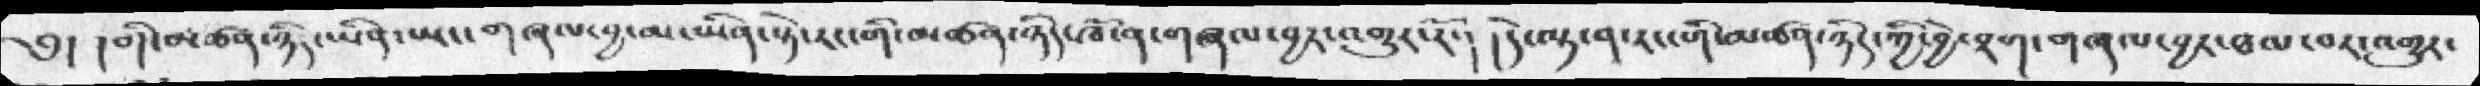༅། །གི་མཚན་ཉིད་ཡིན་ཡང་གཞལ་བྱ་མ་ཡིན་སྟེ་རང་གི་མཚན་ཉིད་ཁོ་ན་གཞལ་བྱར་འགྱུར་རོ་། །དེ་ལྟ་ན་རང་གི་མཚན་ཉིད་ཀྱི་བྱེ་བྲག་གཞལ་བྱར་ཐལ་བར་འགྱུར་
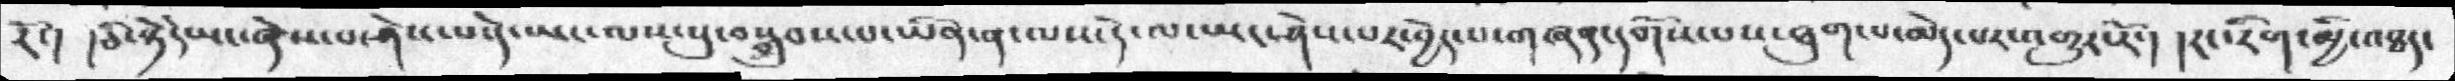རོ་།  །ཅི་སྟེདེཡང་ཞེས་པ་ཤེས་པ་དེ་ཡང་ལས་སུ་བསྒྲུབས་པ་ཡིན་ན་ལས་དེ་ལ་ཡང་ཤེས་པར་བྱེད་པ་གཞན་དགོས་པས་ཐུག་པ་མེད་པར་འགྱུར་རོ་། །རང་རིག་མྱི་འཐད་
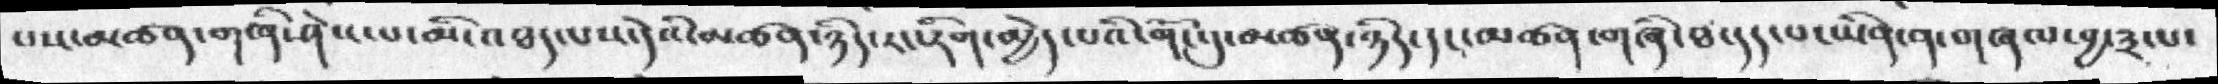པས་མཚན་གཞི་ཤེས་པ་མི་འཐད་པས་དེའི་མཚན་ཉིད་རང་རིག་མྱེད་པའི་གོང་དུ་མཚན་ཉིད་དང་མཚན་གཞི་ཐ་དད་པ་ཡིན་ན་གཞལ་བྱ་༣་པ་
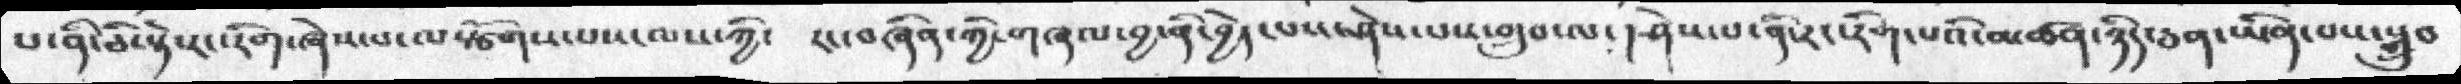པ་ནི་ཅི་སྟེ་རང་རིག་ཞེས་པ་ལསྩོགས་པས་ལས་ཀྱི་ རང་བཞིན་ཀྱི་གཞལ་བྱ་ནི་བྱེད་པས་ཤེས་པས་གྲུབ་ལ་། ཤེས་པ་ནི་རང་རིག་པའི་མཚན་ཉིད་ཅན་ཡིན་པས་སྒྲུབ
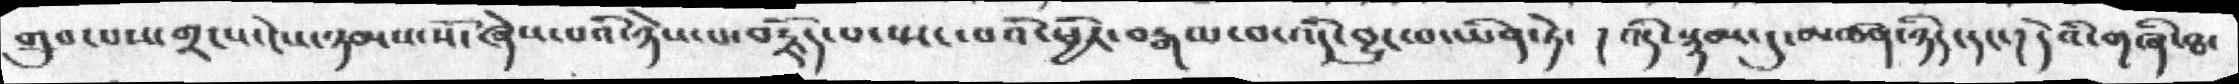གྲུབ་པས་གྲངས་ངེས་ཉམས་སོ་ཞེས་པའི་ཉེས་པ་བརྗོད་པ་སྤང་བའི་ཕྱིར་བརྒལ་བ་འདི་བྱུང་བ་ཡིན་ཏེ་། འདི་སྙམ་དུ་མཚན་ཉིད་དང་། དེའི་གཞི་ཐ་
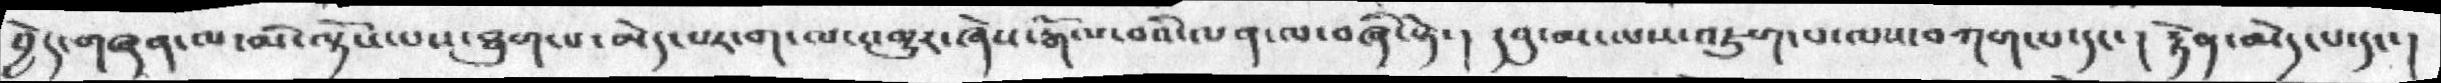བྱེད་གཞན་ལ་མི་ལྟོས་པས་ཐུག་པ་མེད་པར་ག་ལ་འགྱུར་ཞེས་རྒོལ་བའི་ལན་ལ་བཞི་སྟེ་།  དབུ་མ་ལས་འཇུག་པ་ལས་བཀག་པ་དང་། རྟེན་མེད་པ་དང་།
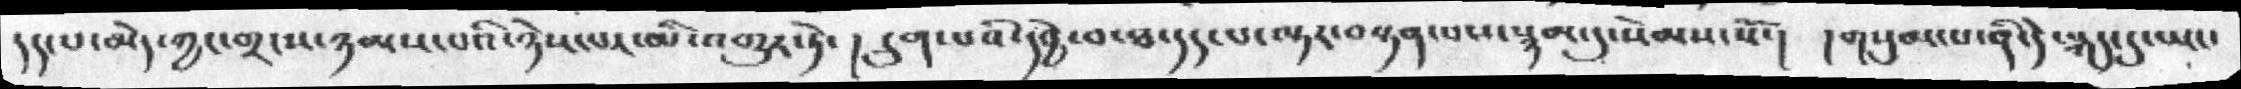དད་པ་མེད་ཀྱང་གྲངས་ཉམས་པའི་ཉེས་པར་མི་འགྱུར་ཏེ་། དྲུག་པའི་དབྱེ་བ་ཐ་དད་པ་ལྟར་བསྟན་པས་སྙམ་དུ་སེམས་སོ་། །གསུམ་པ་ནི་དེ་སྐད་དུ་ཡང་
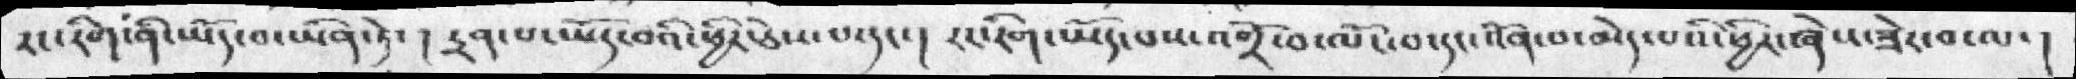རང་རིག་ནི་ཡོད་བ་ིན་ཏེ་།  དྲན་པ་ཡོད་བའི་ཕྱིར་ཅེས་པ་དང་། རང་རིག་ཡོད་པས་འགྲོ་བ་ལོང་བ་དང་འོན་པ་མེད་པའི་ཕྱིར་ཞེས་ཟེར་བ་ལ་།
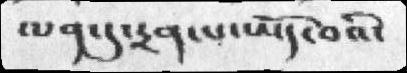ལན་དུ་དྲན་པ་ཡོད་བའི་
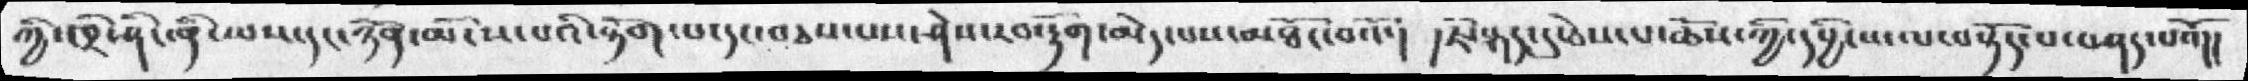ཀྱི་ཁྲི་ཤིང་ནི་ལས་དང་ཉོན་མོངས་པའི་རྟོག་པ་དང་བཅས་པས་ཤེས་རབ་རྟོག་མེད་པས་མཐོང་བའོ་། །ཇི་སྐད་དུ་ཅེས་པ་ཆོས་ཀྱི་དབྱིངས་ལ་བསྟོད་པ་བཤད་པའོ།།
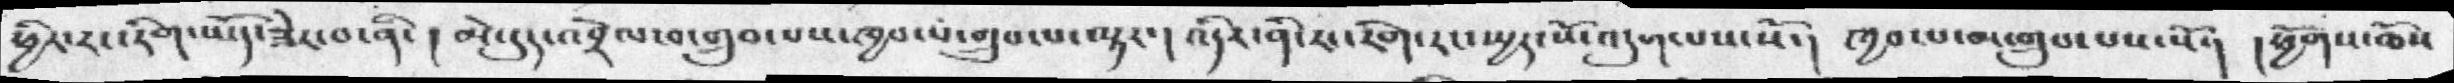ཕྱིར་རང་རིག་ཡོད་ཟེར་བ་ནི་། མེ་དུད་འབྲེལ་བ་གྲུབ་པས་ཁྱབ་པ་གྲུབ་པ་ལྟར་། འདིར་ནི་རང་རིག་རང་སྤྱད་སོ་འདུག་པས་སོ་། ཁྱབ་པ་མ་གྲུབ་པས་སོ་། །ཕྱོགས་ཆོས་
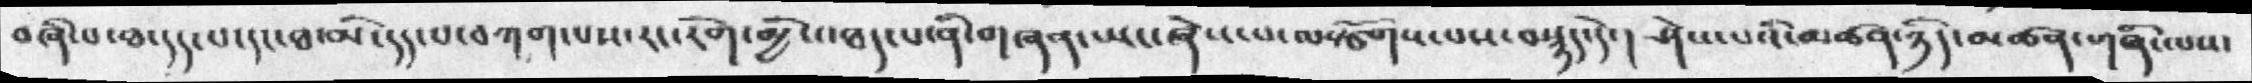བཞི་པ་ཐ་དད་པ་དང་ཐ་མི་དད་པ་བཀག་པས་རང་མྱི་འཐད་པ་ནི་གཞན་ཡང་ཞེས་པ་ལསྩོགས་པས་བསྙད་དེ་། ཤེས་པའི་མཚན་ཉིད་མཚན་གཞི་ལས་
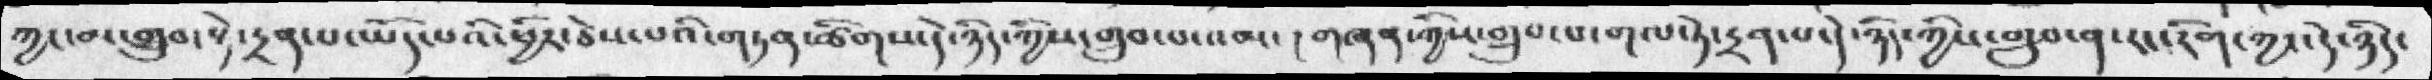ཀྱང་མ་གྲུབ་སྟེ་དྲན་པ་ཡོད་པའི་ཕྱིར་ཅེས་པའི་གཏན་ཚིགས་དེ་ཉིད་ཀྱིས་གྲུབ་པ་འམ་། གཞན་གྱིས་གྲུབ་པ་གལ་ཏེ་དྲན་པ་དེ་ཉིད་ཀྱིས་གྲུབ་ན་རང་རིག་ཀྱང་དེ་ཉིད་
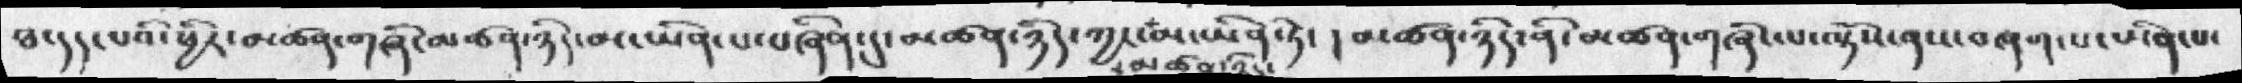ཐ་དད་པའི་ཕྱིར་མཚན་གཞི་མཚན་ཉིད་མ་ཡིན་པ་བཞིན་དུ་མཚན་ཉིད་ཀྱང་མཚན་ཉི་མ་ཡིན་ཏེ་  ། མཚན་ཉིད་ནི་མཚན་གཞི་ལ་ལལྟོས་ནས་བཞག་པ་ནི་པ
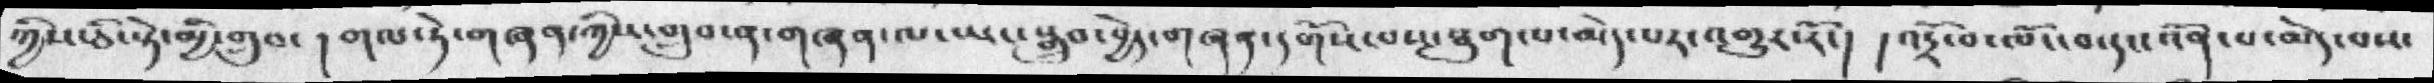ཀྱིས་ཅི་སྟེ་མྱི་གྲུབ་། གལ་ཏེ་གཞན་ཀྱིས་གྲུབ་ན་གཞན་ལ་ཡང་སྒྲུབ་བྱེད་གཞན་དགོས་པས་ཐུག་པ་མེད་པར་འགྱུར་རོ་། །འདྲོ་བ་ཌྷོང་བ་དང་འོན་པ་མེད་པས་
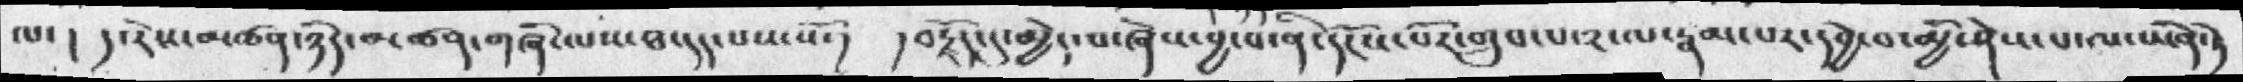ལ་། ད་རེས་མཚན་ཉིད་མཚན་གཞི་ལས་ཐ་དད་པས་སོ་། །བརྗོད་དུ་མྱེད་པ་ཞེས་བྱ་བ་ནི་དངོས་པོར་གྲུབ་པ་༢་ལ་རྣམ་པར་དབྱེ་བ་མྱི་ཤེས་པ་ལ་ཡིན་ཏེ
